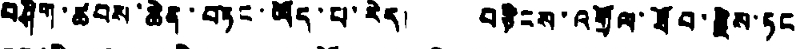བཤིག་ཚབས་ཆེན་བཏང་ཡོད་པ་རེད། བཅིངས་འགྲོལ་ཐོབ་རྗེས་ཏང
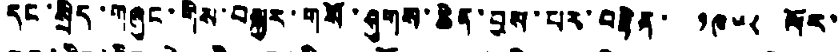དང་སྲིད་གཞུང་གིས་བསྐྱར་གསོ་ཤུགས་ཆེན་བྱས་པར་བརྟེན་ ༡༩༥༨ ལོར་
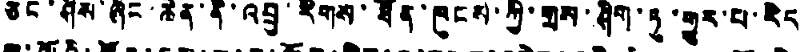ཅང་ཤིས་ཞིང་ཆེན་ནི་འབྲུ་རིགས་ཐོན་ཁུངས་ཀྱི་གྲས་ཤིག་ཏུ་གྱུར་པ་རེད
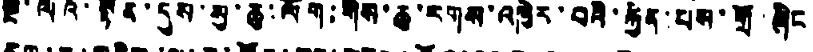སྔ་ལོའི་སྟོན་དུས་སུ་ཆུ་ལོག་གིས་ཆུ་རགས་འཁྱེར་བའི་རྐྱེན་པས་གྲོ་ཞིང
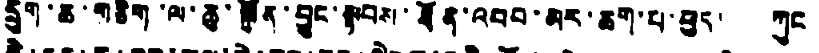དྲུག་ཆ་གཅིག་ལ་ཆུ་སྐྱོན་བྱུང་སྟབས་ཐོན་འབབ་མར་ཆག་པ་ཕུད། ཀུང
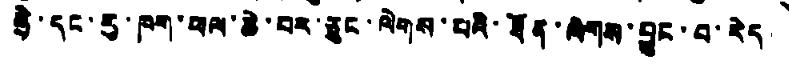ཧྲེ་དང་རུ་ཁག་ཕལ་ཆེ་བར་ཅུང་ལེགས་པའི་ཐོན་ལེགས་བྱུང་བ་རེད།
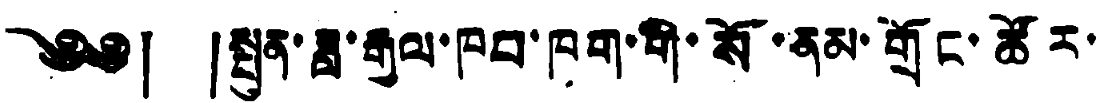༄༅། །སྤུན་ཟླ་རྒྱལ་ཁབ་ཁག་གི་སོ་ནམ་གྲོང་ཚོར་
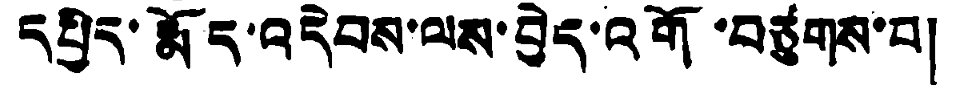དཔྱིད་རྨོད་འདེབས་ལས་བྱེད་འགོ་བཙུགས་པ།
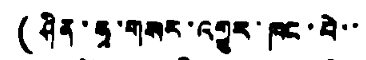(ཤིན་ཧྭ་གསར་འགྱུར་ཁང་བེ་་
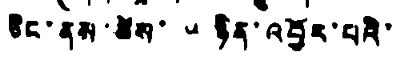ཅིང་ནས་ཚེས་ ༥ ཉིན་འབྱོར་པའི་
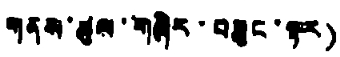གནས་ཚུལ་གཞིར་བཟུང་སྟར)
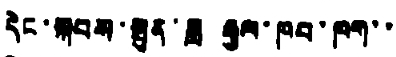དེང་སྐབས་སྤུན་ཟླ རྒྱལ་ཁབ་ཁག་་
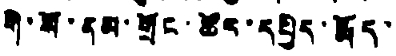གི་སོ་ནམ་གྲོང་ཚོར་དཔྱིད་རྨོད་
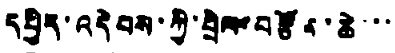དཔྱིད་འདེབས་ཀྱི་བྲེལ་བརྩོན་ཆེ་་་
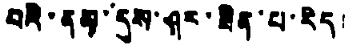བའི་ནམ་དུས་ཤར་ཟིན་པ་རེད།
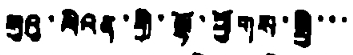སུའུ་ལིའན་གྱི་ལྷོ་ཕྱོགས་སྤྱི་་་
